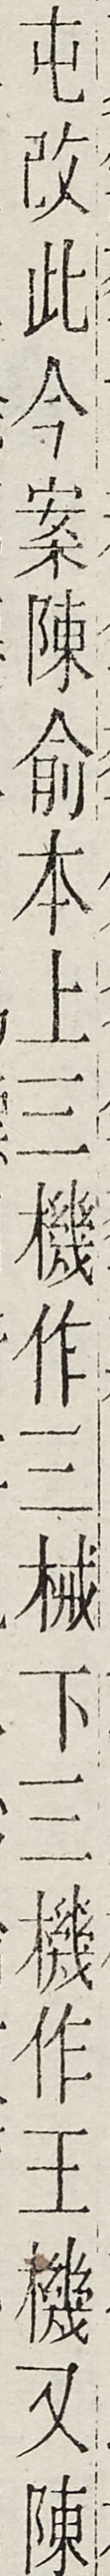屯改此今案陳俞本上三機作三械下三機作王機又陳
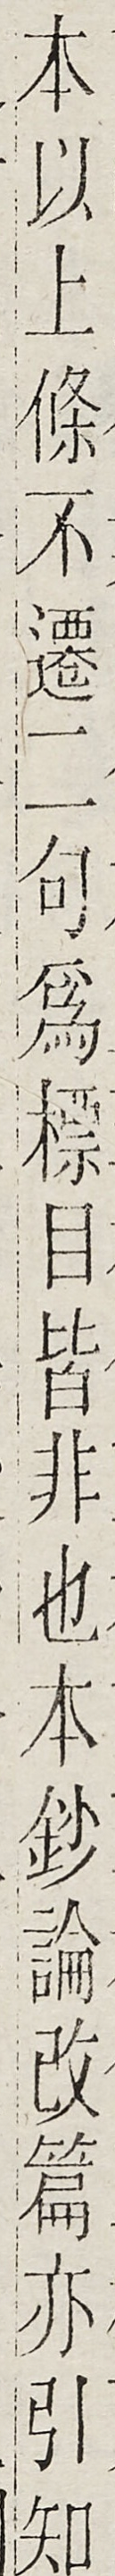本以上條不遷二句為標目皆非也本鈔論改篇亦引知
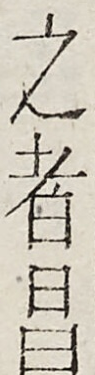之者昌
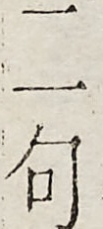二句
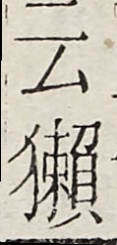云賴
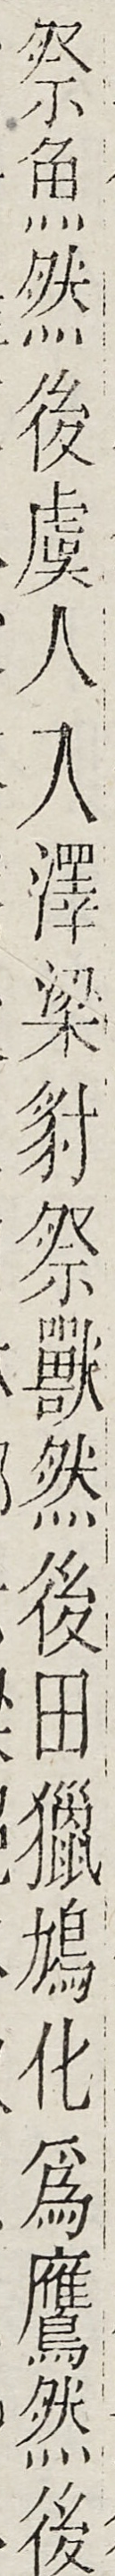祭魚然後虞人入澤梁豹祭獸然後田獵鵪化為鷹然後
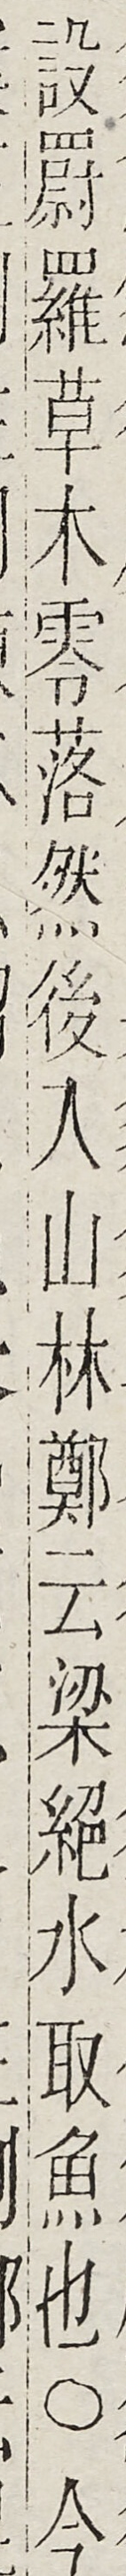設罻羅草木零落然後入山林鄭云梁絕水取魚也○今
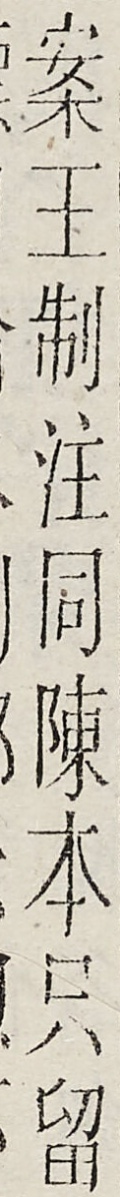案王制注同陳本只留
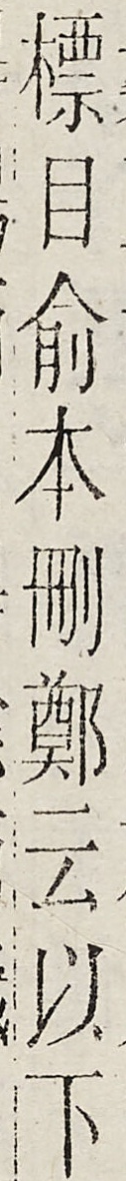標目俞本刪鄭云以下
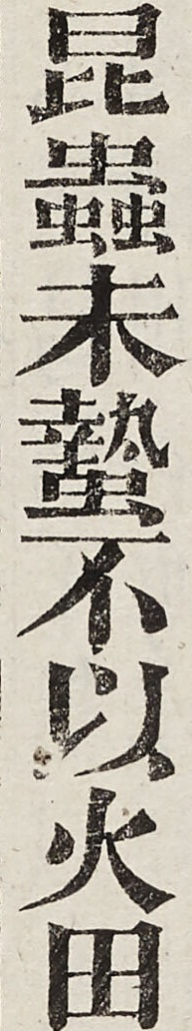昆蟲未蟄不以火田
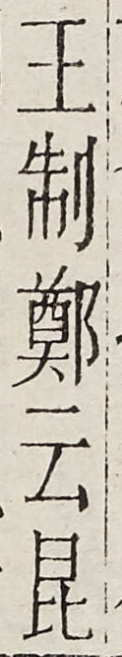王制鄭云昆
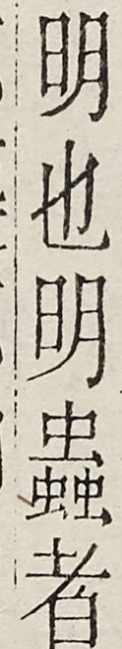明也明蟲者
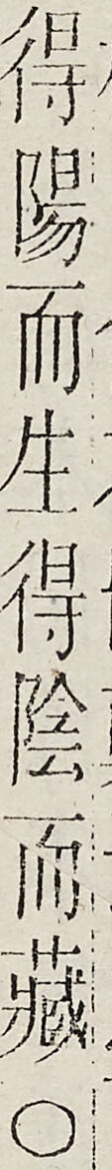得陽而生得陰而藏○
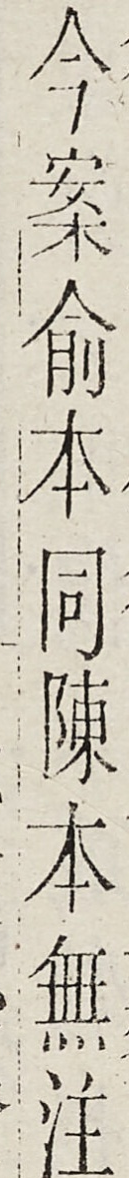今案俞本同陳本無注
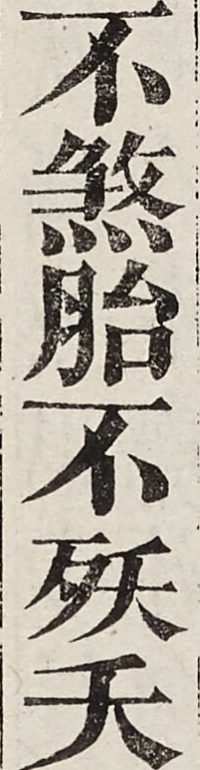不煞胎不殀夭
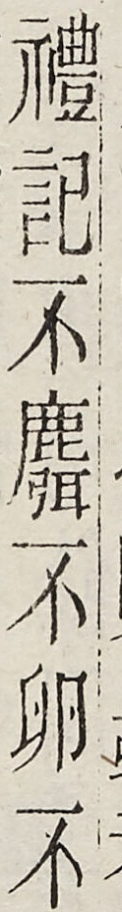禮記不麛不卵不
